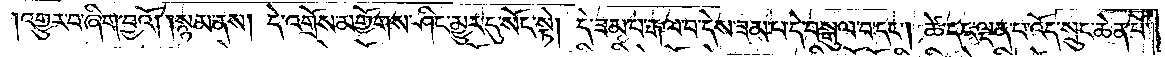འགྱུར་བ་ཞིག་བྱའོ། །སྙམ་ནས། དེ་འགྲོས་མགྱོགས་ཤིང་མྱུར་དུ་སོང་སྟེ། དེ་ཟམ་པ་རྒྱལ་བ་དེས་ཟམ་པ་དེ་བསྒུལ་བ་དང༌། ཚེ་དང་ལྡན་པ་འོད་སྲུང་ཆེན་པོ་
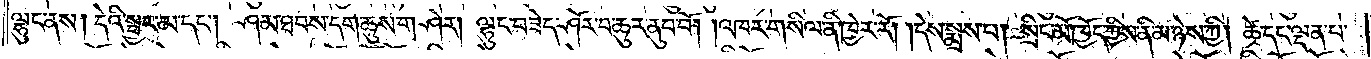ལྷུང་ནས། དེའི་སྦྱར་མ་དང༌། ཤམ་ཐབས་དག་ཆུས་གཤེར། ལྷུང་བཟེད་ཤོར་བ་ཆུར་ནུབ་བོ། །འཁར་གསིལ་ནི་ཁྱེར་རོ། །དེས་སྨྲས་པ། སྲིང་མོ་ཁྱོད་ཀྱིས་ནི་མ་ཉེས་ཀྱི། ཚེ་དང་ལྡན་པ་
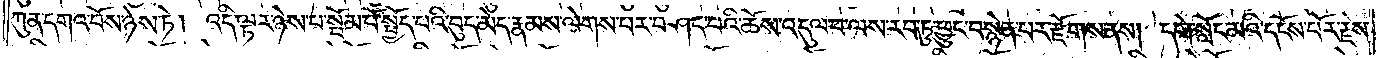ཀུན་དགའ་བོས་ཉེས་ཏེ། འདི་ལྟར་ཉེས་པ་སྦོམ་པོ་སྤྱོད་པའི་བུད་མེད་རྣམས་ལེགས་པར་བཤད་པའི་ཆོས་འདུལ་བ་ལས་རབ་ཏུ་ཕྱུང་བསྙེན་པར་རྫོགས་ནས། དགེ་སློང་མའི་དངོས་པོར་རྗེས་
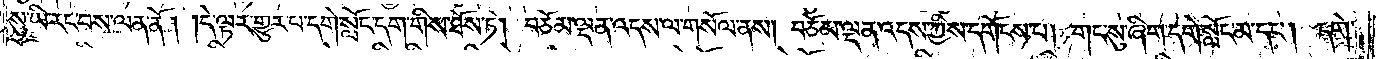སུ་ཡི་རང་བས་ལན་ནོ། །དེ་ལྟར་གྱུར་པ་དགེ་སློང་དག་གིས་ཐོས་ཏེ། བཅོམ་ལྡན་འདས་ལ་གསོལ་ནས། བཅོམ་ལྡན་འདས་ཀྱིས་དགོངས་པ། གང་སུ་ཞིག་དགེ་སློང་མ་དང༌། དགེ་
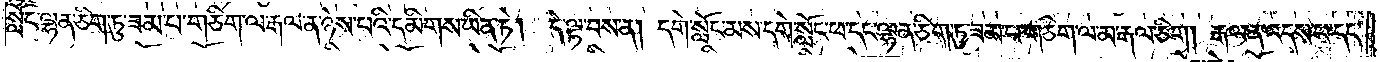སློང་ལྷན་ཅིག་ཏུ་ཟམ་པ་གཅིག་ལ་རྒལ་ན་ཉེས་པའི་དམིགས་ཡིན་ཏེ། དེ་ལྟ་བས་ན། དགེ་སློང་མས་དགེ་སློང་ཕ་དང་ལྷན་ཅིག་ཏུ་ཟམ་པ་གཅིག་ལམ་རྒལ་ཅིག །རྒལ་ན་འདས་པ་དང་
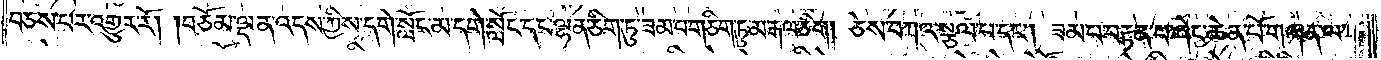བཅས་པར་འགྱུར་རོ། །བཅོམ་ལྡན་འདས་ཀྱིས་དགེ་སློང་མ་དགེ་སློང་དང་ལྷན་ཅིག་ཏུ་ཟམ་པ་གཅིག་ཏུ་མ་རྒལ་ཅིག །ཅེས་བཀའ་སྩལ་པ་དང༌། ཟམ་པ་བརྟན་པ་ཞེང་ཆེན་པོ་གཞན་ལ་
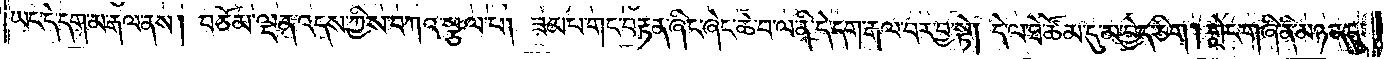ཡང་དེ་དག་མ་རྒལ་ནས། བཅོམ་ལྡན་འདས་ཀྱིས་བཀའ་སྩལ་པ། ཟམ་པ་གང་བརྟན་ཞིང་ཞེང་ཆེ་བ་ལ་ནི་དེ་དག་རྒལ་བར་བྱ་སྟེ། དེ་ལ་ཐེ་ཚོམ་དུ་མ་བྱེད་ཅིག །གླེང་གཞི་ནི་མཉན་དུ་
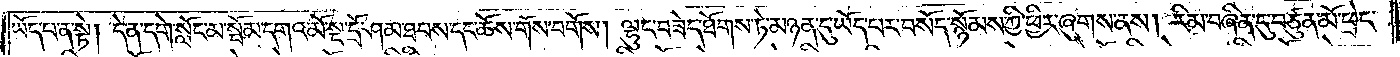ཡོད་པ་ན་སྟེ། དེ་ན་དགེ་སློང་མ་སྦོམ་དགའ་མོ་སྔ་དྲོ་ཤམ་ཐབས་དང་ཆོས་གོས་བགོས། ལྷུང་བཟེད་ཐོགས་ཏེ་མཉན་དུ་ཡོད་པར་བསོད་སྙོམས་ཀྱི་ཕྱིར་ཞུགས་ནས། རིམ་བཞིན་དུ་བཙུན་མོ་ཕྲེང་
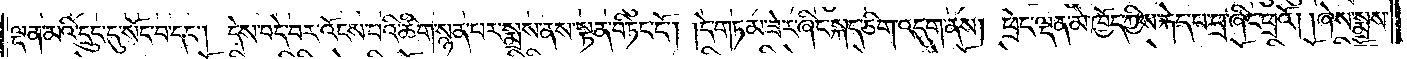ལྡན་མའི་དྲུང་དུ་སོང་བ་དང༌། དེས་བདེ་བར་འོངས་པའི་ཚིག་སྙན་པར་སྨྲས་ནས་སྟན་བ་ཏིང་ངོ༌། །དེ་གཏམ་ཟེར་ཞིང་སྐད་ཅིག་འདུག་ནས། ཕྲེང་ལྡན་མ་ཁྱོད་ཀྱིས་རྐེད་པ་ཕྲ་ཞིང་ཕྲའོ། །ཞེས་སྨྲས་
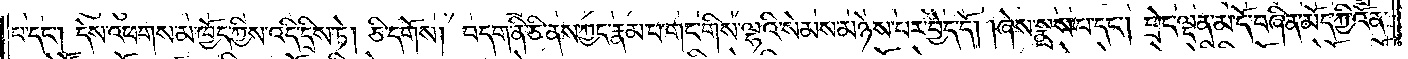པ་དང༌། དེས་འཕགས་མ་ཁྱོད་ཀྱིས་འདི་དྲིས་ཏེ། ཅི་དགོས། བདག་ནི་ཅི་ནས་ཀྱང་རྣམ་པ་གང་གིས་ལྷའི་སེམས་མཉེས་པར་བྱེད་དོ། །ཞེས་སྨྲས་པ་དང༌། ཕྲེང་ལྡན་མ་དོ་བཞིན་མོད་ཀྱི་འོན་
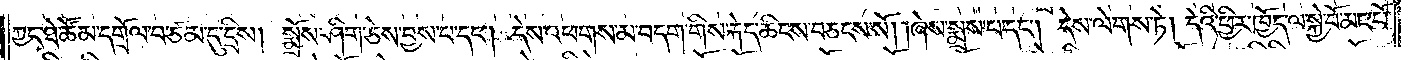ཀྱང་ཐེ་ཚོམ་དགྲོལ་བ་ཙམ་དུ་དྲིས། སྨྲོས་ཤིག་ཅེས་བྱས་པ་དང༌། དེས་འཕགས་མ་བདག་གིས་རྐེད་ཆིངས་བཅངས་སོ། །ཞེས་སྨྲས་པ་དང༌། དེས་ལེགས་ཏེ། དེའི་ཕྱིར་ཁྱོད་ལ་སྐྱེ་བོ་མང་པོ་
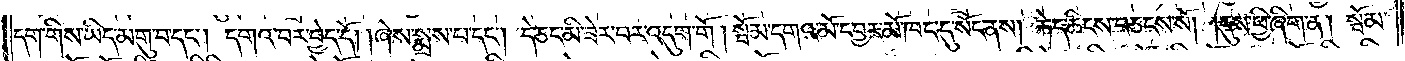དག་གིས་ཡིད་མགུ་བ་དང༌། དགའ་བར་བྱེད་དོ། །ཞེས་སྨྲས་པ་དང༌། དེ་ཅང་མི་ཟེར་བར་འདུག་གོ། སྦོམ་དགའ་མོ་དབྱར་མོ་ཁང་དུ་སོང་ནས། རྐེད་ཆིངས་བཅངས་སོ། །དུས་ཕྱི་ཞིག་ན། སྦོམ་
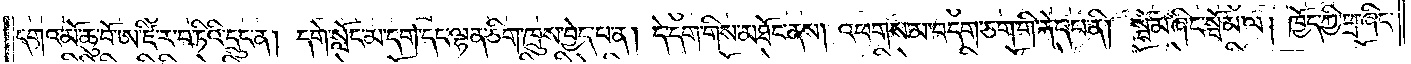དགའ་མོ་ཆུ་བོ་ཨ་ཛི་ར་བ་ཏིའི་དྲུང་ན། དགེ་སློང་མ་དག་དང་ལྷན་ཅིག་ཁྲུས་བྱེད་པ་ན། དེ་དག་གིས་མཐོང་ནས། འཕགས་མ་བདག་ཅག་གི་རྐེད་པ་ནི། སྦོམ་ཞིང་སྦོམ་ལ། ཁྱོད་ཀྱི་ཕྲ་ཞིང་
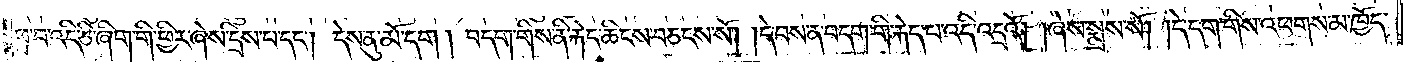ཕྲ་བ་འདི་ཅི་ཞིག་གི་ཕྱིར་ཞེས་དྲིས་པ་དང༌། དེས་ནུ་མོ་དག །བདག་གིས་ནི་རྐེད་ཆིངས་བཅངས་སོ། །དེ་བས་ན་བདག་གི་རྐེད་པ་འདི་འདྲའོ། །ཞེས་སྨྲས་སོ། །དེ་དག་གིས་འཕགས་མ་ཁྱོད་
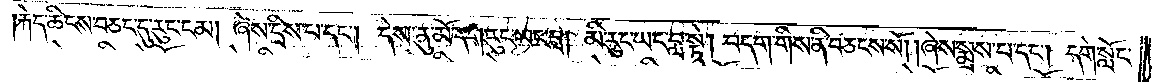རྐེད་ཆིངས་བཅང་དུ་རུང་ངམ། ཞེས་དྲིས་པ་དང༌། དེས་ནུ་མོ་དག་རུང་ཡང་བླ། མི་རུང་ཡང་བླ་སྟེ། བདག་གིས་ནི་བཅངས་སོ། །ཞེས་སྨྲས་པ་དང༌། དགེ་སློང་
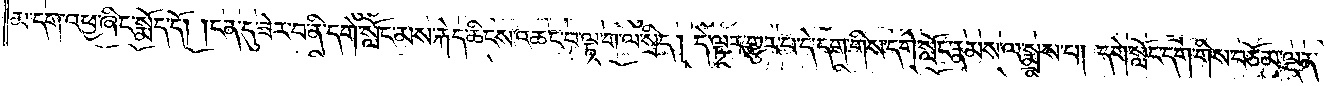མ་དག་འཕྱ་ཞིང་སྨོད་དོ། །ངན་དུ་ཟེར་བ་ནི་དགེ་སློང་མས་རྐེད་ཆིངས་འཆང་བ་ལྟ་ག་ལ་སྲིད། དེ་ལྟར་གྱུར་པ་དེ་དག་གིས་དགེ་སློང་རྣམས་ལ་སྨྲས་པ། དགེ་སློང་དག་གིས་བཅོམ་ལྡན་
